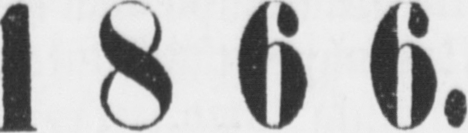1 8 66.
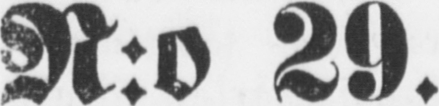N:o 29.
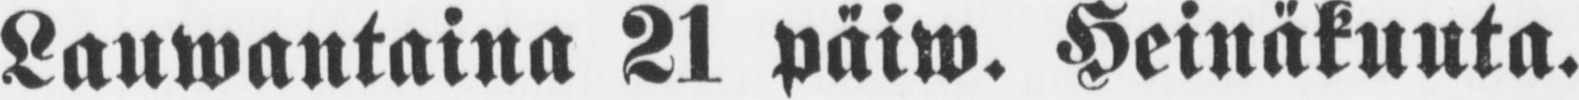Lauwantaina 21 päiw. Heinäkuuta.
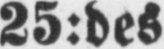25:des
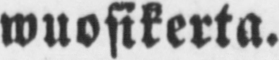wuosikerta.
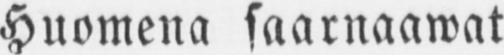Huomena saarnaawat
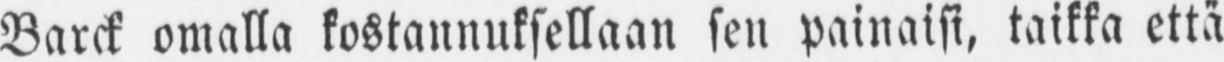Barck omalla kostannuksellaan sen painaisi, taikka että
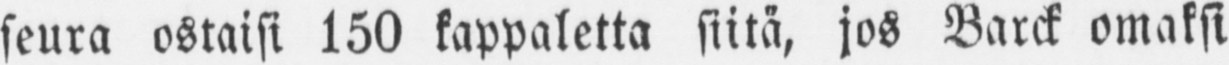seura ostaisi 150 kappaletta siitä, jos Barck omaksi
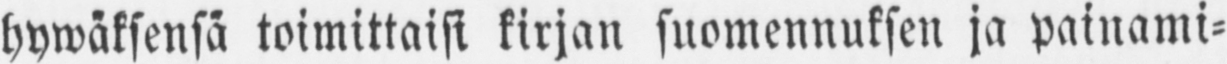hywäksensä toimittaisi kirjan suomennuksen ja painami-
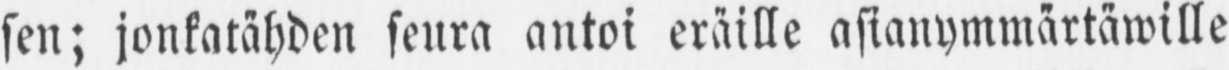sen; jonkatähden seura antoi eräille asianymmärtäwille
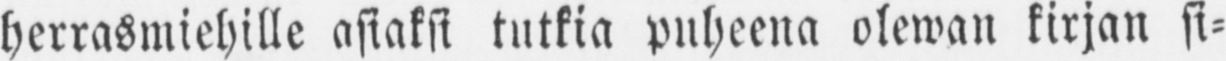herrasmiehille asiaksi tutkia puheena olewan kirjan si-
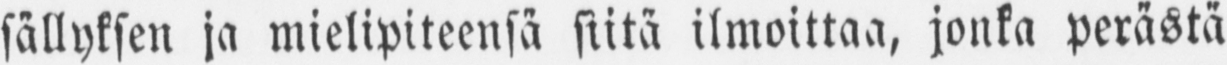sällyksen ja mielipiteensä siitä ilmoittaa, jonka perästä
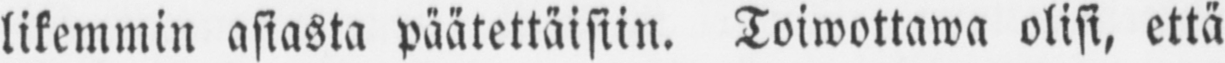likemmin asiasta päätettäisiin. Toiwottawa olisi, että
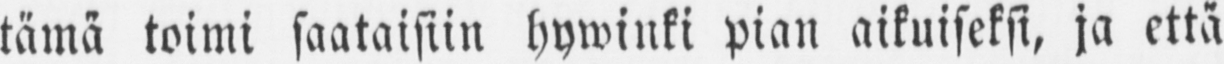tämä toimi saataisiin hywinki pian aikuiseksi, ja että
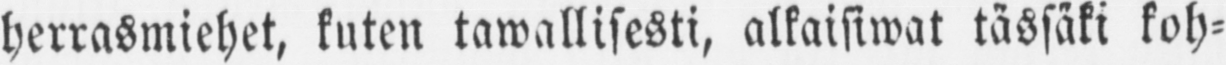herrasmiehet, kuten tawallisesti, alkaisiwat tässäki koh-
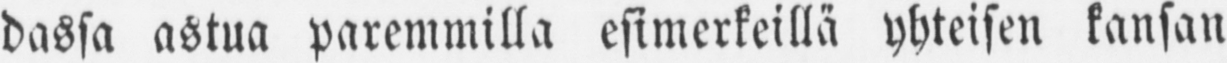dassa astua paremmilla esimerkeillä yhteisen kansan
